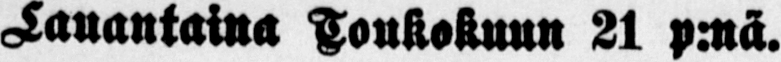Lauantaina Toukokuun 21 p.nä.
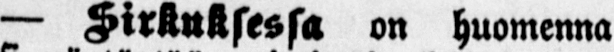— Sirkuksessa on huomenna
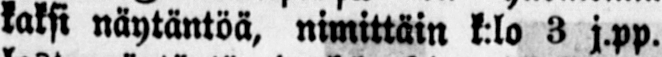kaksi näytäntöä, nimittäin k:lo 3 j.pp.
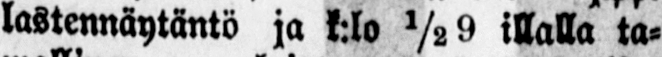lastennäytäntö ja klo ½ 9 illalla ta-
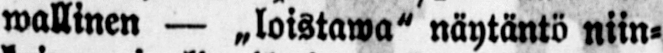wallinen — „loistawa" näytäntö niin-
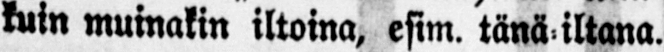kuin muinakin iltoina, esim. tänä iltana.
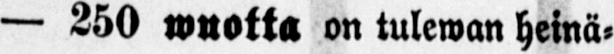— 250 wuotta on tulewan heinä-
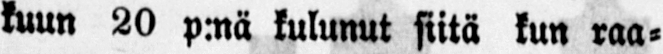kuun 20 p.nä kulunut siitä kun raa-
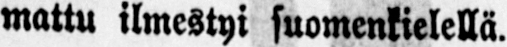mattu ilmestyi suomenkielellä.
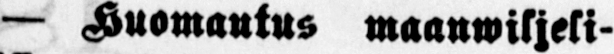— -Huomautus maanwiljeli-
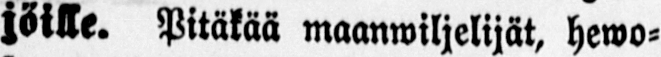jöille. Pitäkää maanwiljelijät, hewo-
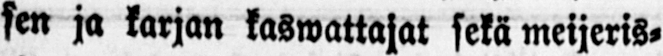sen ja karjan kaswattajat sekä meijeris-
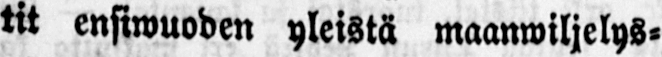tä ensiwuoden yleistä maanwiljelys-
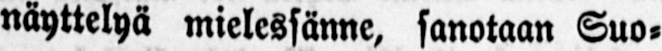näyttelyä mielessänne, sanotaan Suo-
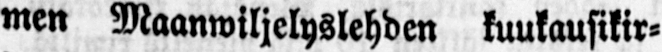men Maanwiljelyslehden kuukausikir-
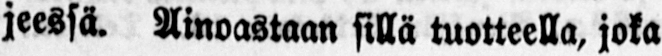jeessä. Ainoastaan sillä tuotteella, joka
